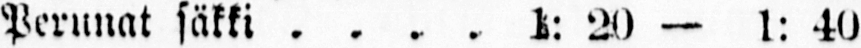Perunat säkki 1: 20 — 1: 40
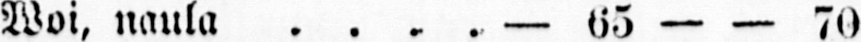Woi, naula — 65 — — 70
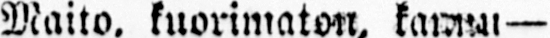Maito, kuorimaton. ka— 25 — — 30
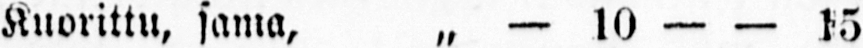Kuorittu, sama, „ — 10 — — 15
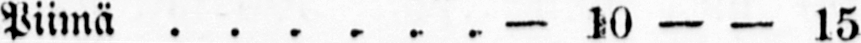Piimä — 10 — — 15
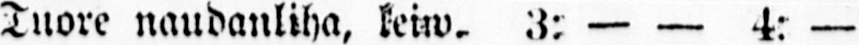Tuore naudanliha, Keiw. 3: — — 4: —
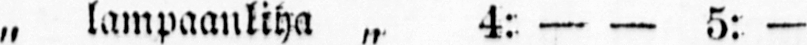„ lampaanliha „ 4: — — 5: —
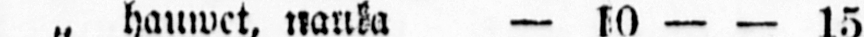„ hauwet, nanka — 10 — — 15
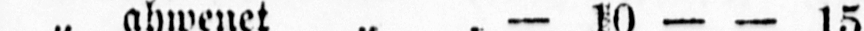„ ahwenet „ — 10 — — 15
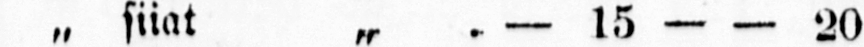„ siiat „ — 15 — — 20
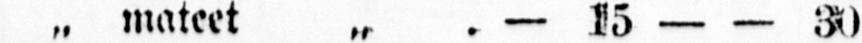„ mateet „ — 15 — — 30
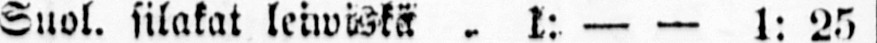Suol. silakat leiwiskä 1: — — 1: 25
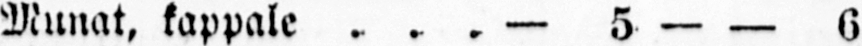Munat, kappale — 5 — — 6
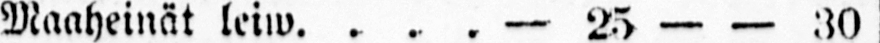Maaheinät leiw — 25 — — 30
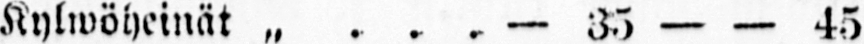Kylwöheinät „ — 35 — — 45
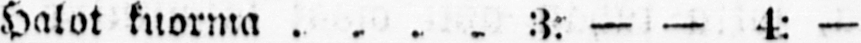Halot kuorma 3: — — 4: —
